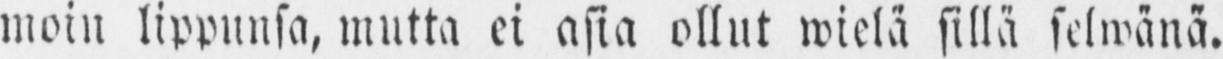moin lippunsa, mutta ei asia ollut wielä sillä selwänä.
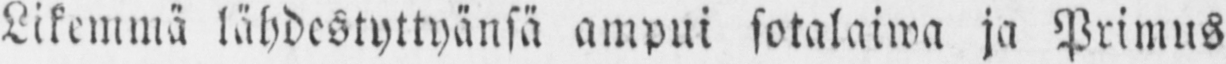Likemmä lähdestyttyänsä ampui sotalaiwa ja Primus
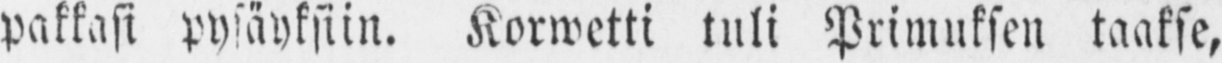pakkasi pysäyksiin. Korwetti tuli Primuksen taakse,
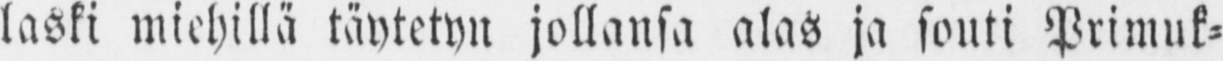laski miehillä täytetyn jollansa alas ja souti Primuk-
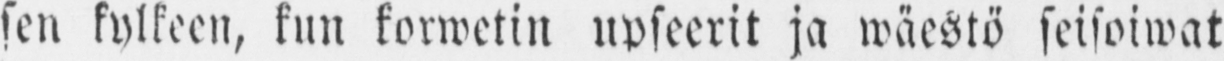sen kylkeen, kun korwetin upseerit ja wäestö seisoiwat
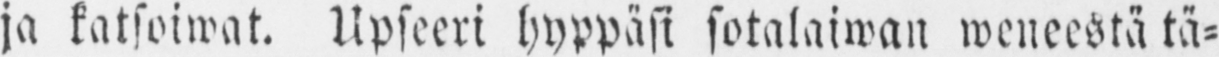ja katsoiwat. Upseeri hyppäsi sotalaiwan weneestä tä-
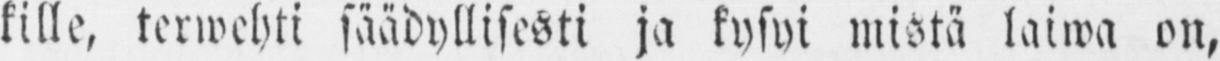kille, terwehti säädyllisesti ja kysyi mistä laiwa on,
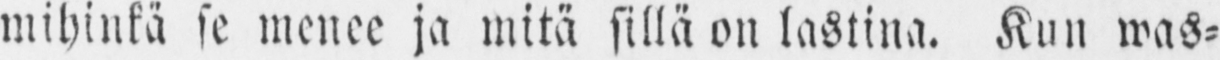mihinkä se menee ja mitä sillä on lastina. Kun was-
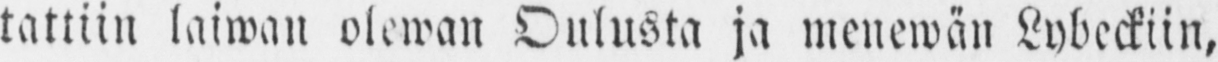tattiin laiwan olewan Oulusta ja menewän Lybeckiin,
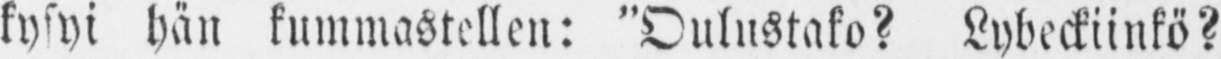kysyi hän kummastellen: "Oulustako? Lybeckiinkö?
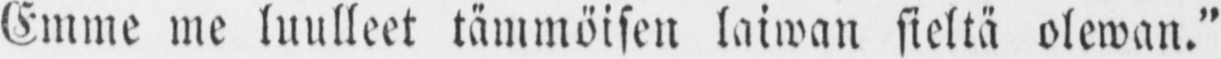Emme me luulleet tämmöisen laiwan sieltä olewan."
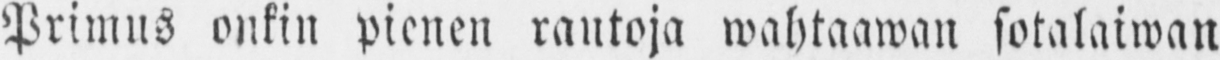Primus onkin pienen rantoja wahtaawan sotalaiwan
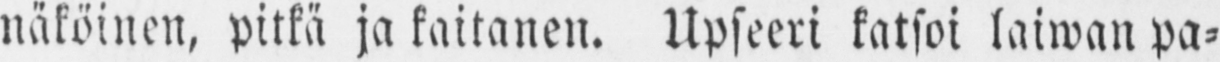näköinen, pitkä ja kaitanen. Upseeri katsoi laiwan pa-
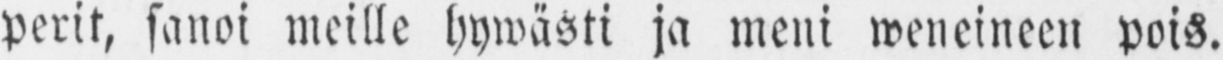perit, sanoi meille hywästi ja meni weneineen pois.
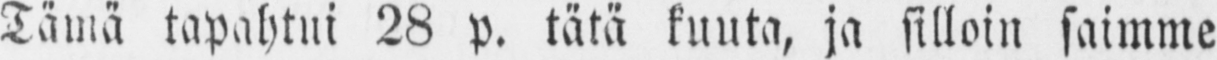Tämä tapahtui 28 p. tätä kuuta, ja silloin saimme
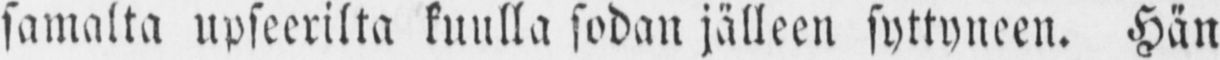samalta upseerilta kuulla sodan jälleen syttyneen. Hän
